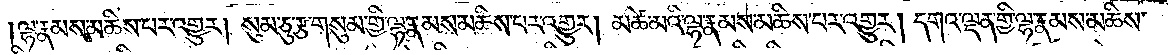ལྷ་རྣམས་མཆིས་པར་འགྱུར། སུམ་ཅུ་རྩ་གསུམ་གྱི་ལྷ་རྣམས་མཆིས་པར་འགྱུར། མཚེ་མའི་ལྷ་རྣམས་མཆིས་པར་འགྱུར། དགའ་ལྡན་གྱི་ལྷ་རྣམས་མཆིས་
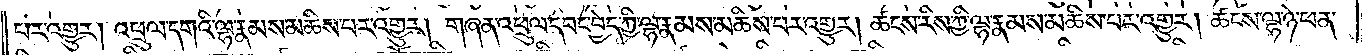པར་འགྱུར། འཕྲུལ་དགའི་ལྷ་རྣམས་མཆིས་པར་འགྱུར། གཞན་འཕྲུལ་དབང་བྱེད་ཀྱི་ལྷ་རྣམས་མཆིས་པར་འགྱུར། ཚངས་རིས་ཀྱི་ལྷ་རྣམས་མཆིས་པར་འགྱུར། ཚངས་ལྷ་ཉེ་ཕན་
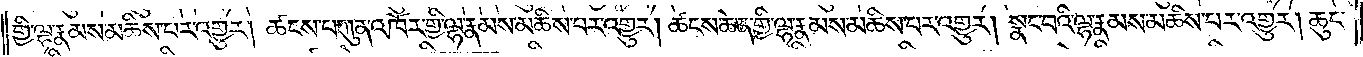གྱི་ལྷ་རྣམས་མཆིས་པར་འགྱུར། ཚངས་པ་ཀུན་འཁོར་གྱི་ལྷ་རྣམས་མཆིས་པར་འགྱུར། ཚངས་ཆེན་གྱི་ལྷ་རྣམས་མཆིས་པར་འགྱུར། སྣང་བའི་ལྷ་རྣམས་མཆིས་པར་འགྱུར། ཆུང་
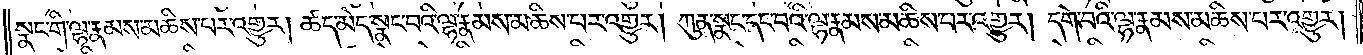སྣང་གི་ལྷ་རྣམས་མཆིས་པར་འགྱུར། ཚད་མེད་སྣང་བའི་ལྷ་རྣམས་མཆིས་པར་འགྱུར། ཀུན་སྣང་དང་བའི་ལྷ་རྣམས་མཆིས་པར་འགྱུར། དགེ་བའི་ལྷ་རྣམས་མཆིས་པར་འགྱུར།
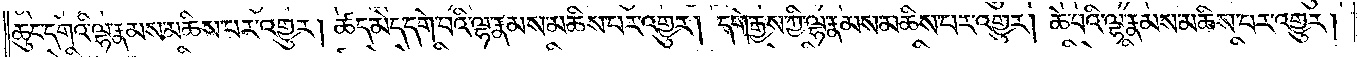ཆུང་དགེའི་ལྷ་རྣམས་མཆིས་པར་འགྱུར། ཚད་མེད་དགེ་བའི་ལྷ་རྣམས་མཆིས་པར་འགྱུར། དགེ་རྒྱས་ཀྱི་ལྷ་རྣམས་མཆིས་པར་འགྱུར། ཆེ་བའི་ལྷ་རྣམས་མཆིས་པར་འགྱུར།
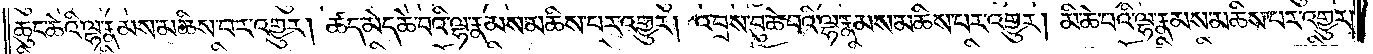ཆུང་ཆེའི་ལྷ་རྣམས་མཆིས་པར་འགྱུར། ཚད་མེད་ཆེ་བའི་ལྷ་རྣམས་མཆིས་པར་འགྱུར། འབྲས་བུ་ཆེ་བའི་ལྷ་རྣམས་མཆིས་པར་འགྱུར། མི་ཆེ་བའི་ལྷ་རྣམས་མཆིས་པར་འགྱུར།
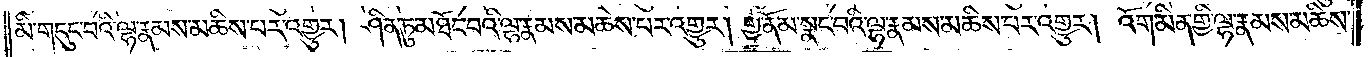མི་གདུང་བའི་ལྷ་རྣམས་མཆིས་པར་འགྱུར། ཤིན་ཏུ་མཐོང་བའི་ལྷ་རྣམས་མཆིས་པར་འགྱུར། གྱ་ནོམ་སྣང་བའི་ལྷ་རྣམས་མཆིས་པར་འགྱུར། འོག་མིན་གྱི་ལྷ་རྣམས་མཆིས་
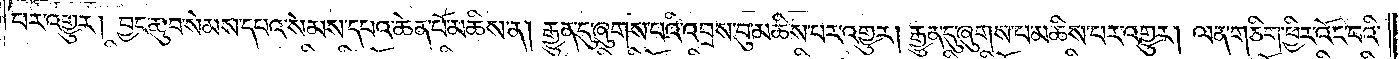པར་འགྱུར། བྱང་ཆུབ་སེམས་དཔའ་སེམས་དཔའ་ཆེན་པོ་མཆིས་ན། རྒྱུན་དུ་ཞུགས་པའི་འབྲས་བུ་མཆིས་པར་འགྱུར། རྒྱུན་དུ་ཞུགས་པ་མཆིས་པར་འགྱུར། ལན་གཅིག་ཕྱིར་འོང་བའི་
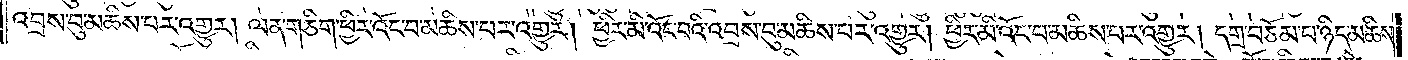འབྲས་བུ་མཆིས་པར་འགྱུར། ལན་གཅིག་ཕྱིར་འོང་བ་མཆིས་པར་འགྱུར། ཕྱིར་མི་འོང་བའི་འབྲས་བུ་མཆིས་པར་འགྱུར། ཕྱིར་མི་འོང་བ་མཆིས་པར་འགྱུར། དགྲ་བཅོམ་པ་ཉིད་མཆིས་
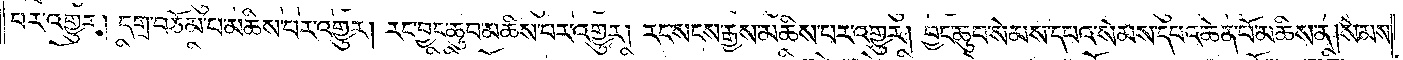པར་འགྱུར། དགྲ་བཅོམ་པ་མཆིས་པར་འགྱུར། རང་བྱང་ཆུབ་མཆིས་པར་འགྱུར། རང་སངས་རྒྱས་མཆིས་པར་འགྱུར། བྱང་ཆུབ་སེམས་དཔའ་སེམས་དཔའ་ཆེན་པོ་མཆིས་ན། སེམས་
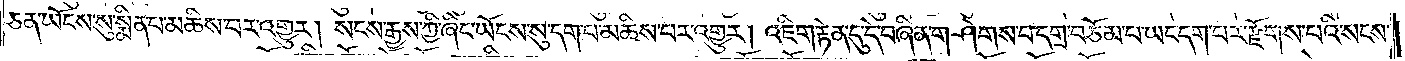ཅན་ཡོངས་སུ་སྨིན་པ་མཆིས་པར་འགྱུར། སངས་རྒྱས་ཀྱི་ཞིང་ཡོངས་སུ་དག་པ་མཆིས་པར་འགྱུར། འཇིག་རྟེན་དུ་དེ་བཞིན་གཤེགས་པ་དགྲ་བཅོམ་པ་ཡང་དག་པར་རྫོགས་པའི་སངས་
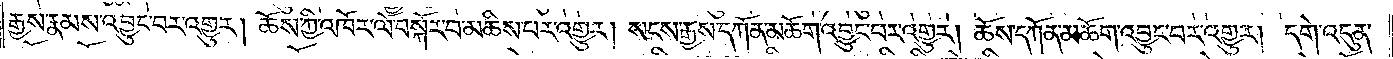རྒྱས་རྣམས་འབྱུང་བར་འགྱུར། ཆོས་ཀྱི་འཁོར་ལོ་བསྐོར་བ་མཆིས་པར་འགྱུར། སངས་རྒྱས་དཀོན་མཆོག་འབྱུང་བར་འགྱུར། ཆོས་དཀོན་མཆོག་འབྱུང་བར་འགྱུར། དགེ་འདུན་
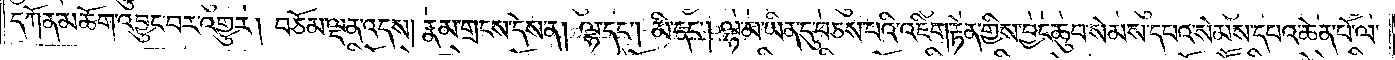དཀོན་མཆོག་འབྱུང་བར་འགྱུར། བཅོམ་ལྡན་འདས། རྣམ་གྲངས་དེས་ན། ལྷ་དང༌། མི་དང༌། ལྷ་མ་ཡིན་དུ་བཅས་པའི་འཇིག་རྟེན་གྱིས་བྱང་ཆུབ་སེམས་དཔའ་སེམས་དཔའ་ཆེན་པོ་ལ་
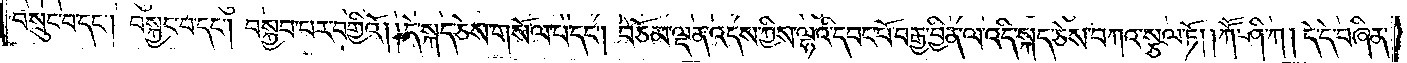བསྲུང་བ་དང༌། བསྐྱང་བ་དང༌། བསྐྱབ་པར་བགྱིའོ། །དེ་སྐད་ཅེས་གསོལ་པ་དང༌། བཅོམ་ལྡན་འདས་ཀྱིས་ལྷའི་དབང་པོ་བརྒྱ་བྱིན་ལ་འདི་སྐད་ཅེས་བཀའ་སྩལ་ཏོ། །ཀཽ་ཤི་ཀ། དེ་དེ་བཞིན་
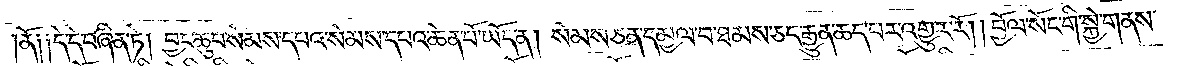ནོ༑ ༑དེ་དེ་བཞིན་ཏེ། བྱང་ཆུབ་སེམས་དཔའ་སེམས་དཔའ་ཆེན་པོ་ཡོད་ན། སེམས་ཅན་དམྱལ་བ་ཐམས་ཅད་རྒྱུན་ཆད་པར་འགྱུར་རོ། །བྱོལ་སོང་གི་སྐྱེ་གནས་
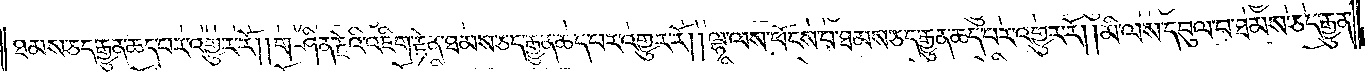ཐམས་ཅད་རྒྱུན་ཆད་པར་འགྱུར་རོ། །གཤིན་རྗེའི་འཇིག་རྟེན་ཐམས་ཅད་རྒྱུན་ཆད་པར་འགྱུར་རོ། །ལྷ་ལས་ཕོངས་པ་ཐམས་ཅད་རྒྱུན་ཆད་པར་འགྱུར་རོ། །མི་ལས་དབུལ་བ་ཐམས་ཅད་རྒྱུན་
